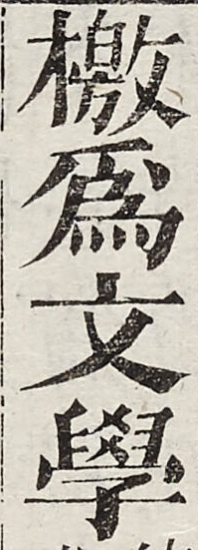檄為文學
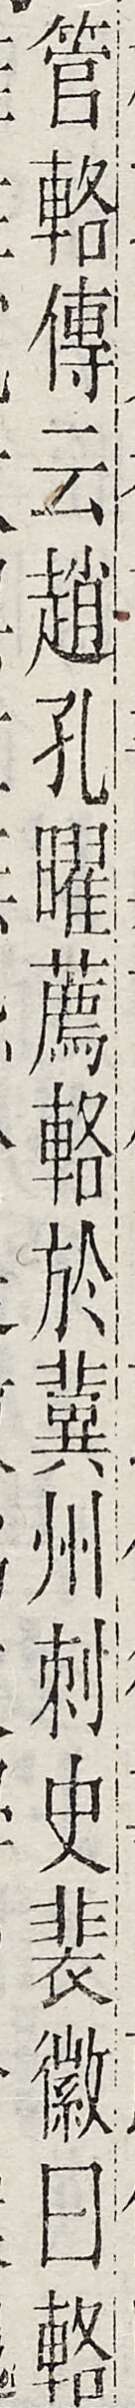管輅傳云趙孔曜薦□於冀州刺史裴徽曰輅
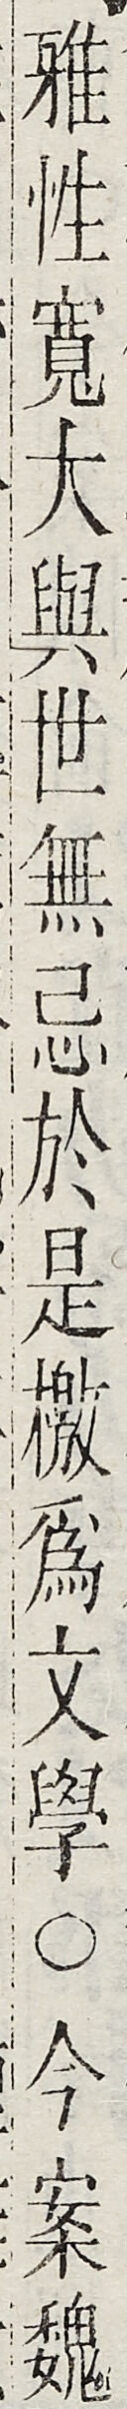雅性寬大與世無忌於是□為文學○今案魏
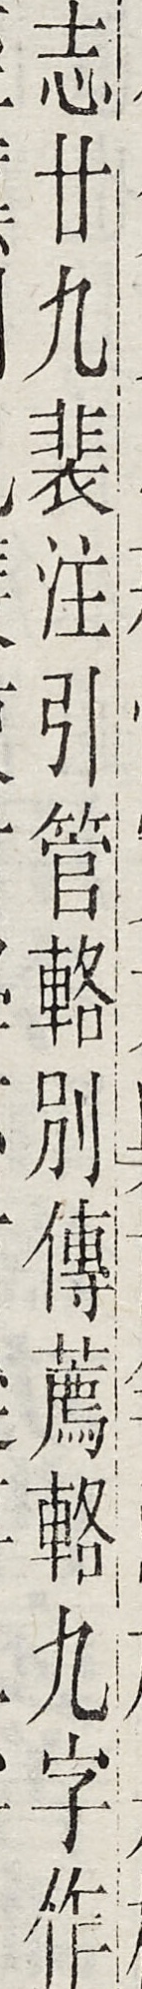志廿九裴注引管輅別傳薦輅九字作
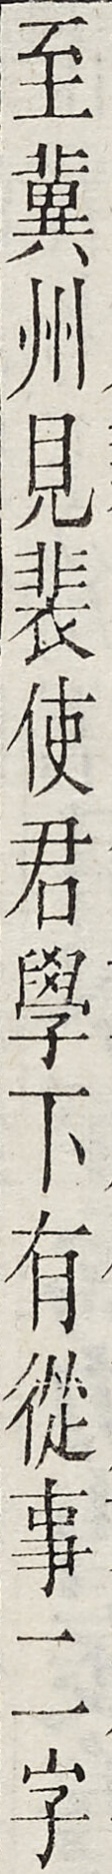至冀州見裴使君學下有從事二字
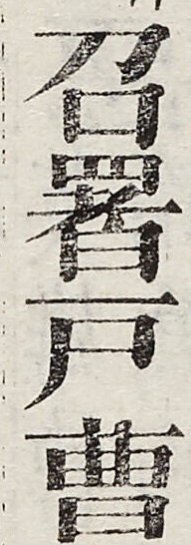召署戶曹
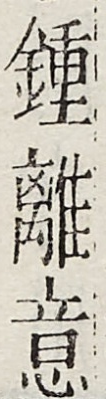鐘離意
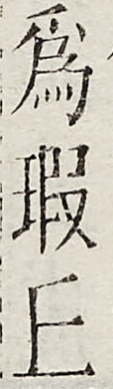為瑕上
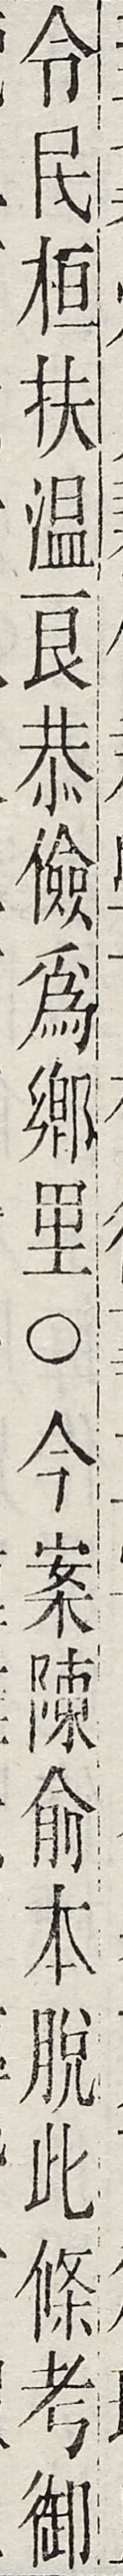令民桓扶溫良恭儉為鄉里○今案陳俞本脫此條考御
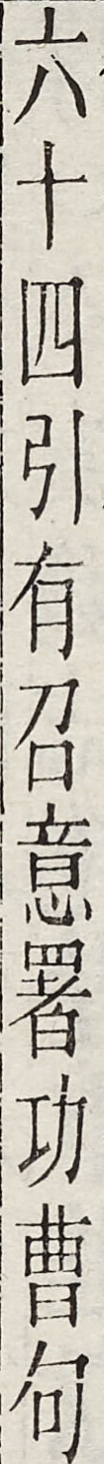六十四引有召意署功曹句
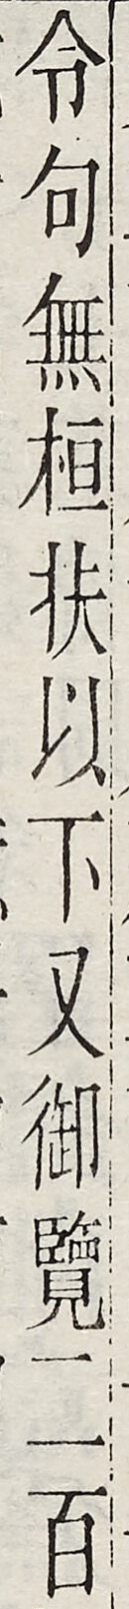令句無桓扶以下又御覽二百
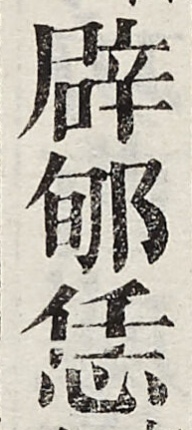闢郇恁
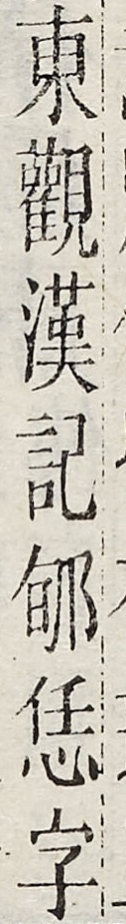東觀漢記郇恁字
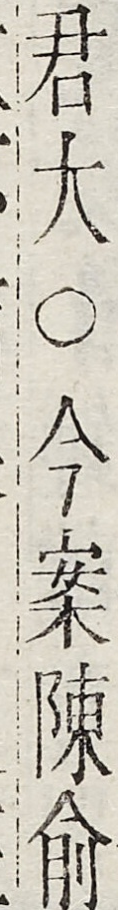君大○今案陳俞
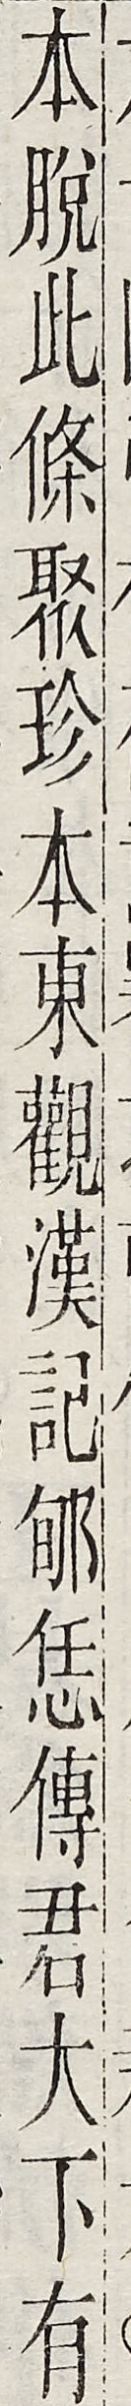本脫此條聚珍本東觀漢記郇恁傳君大下有
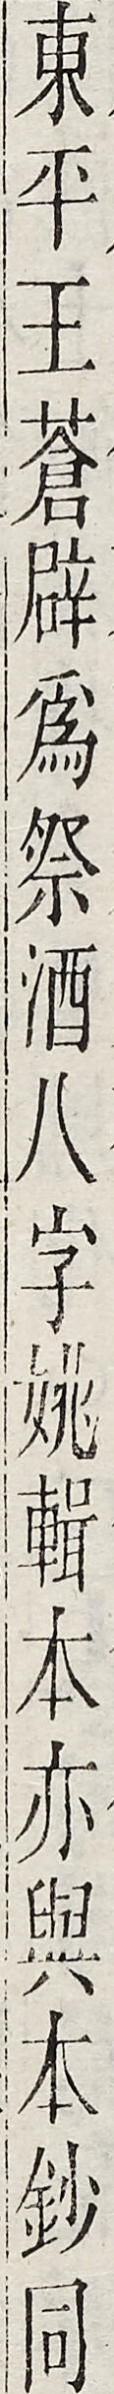東平王蒼闢為祭酒八字姚輯本亦與本鈔同
